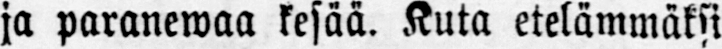ja paranewaa kesää. Kuta etelämmäksi
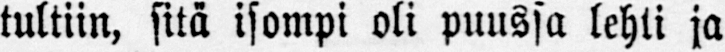tultiin, sitä isompi oli puussa lehti ja
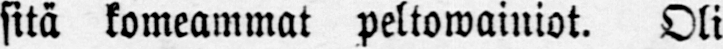sitä komeammat peltowainiot. Oli
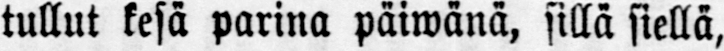tullut kesä parina päiwänä, sillä siellä,
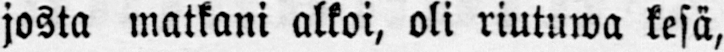josta matkani alkoi, oli riutuwa kesä,
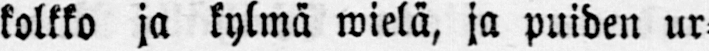kolkko ja kylmä wielä, ja puiden ur-
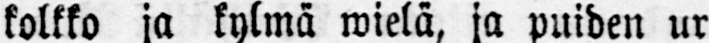wot oliwat hiiren korwulla. Oliwatko
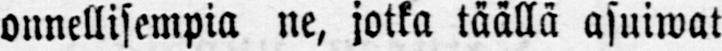onnellisempia ne, jotka täällä asuiwat
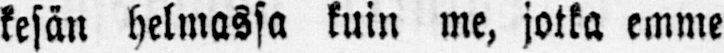kesän helmassa kuin me, jotka emme
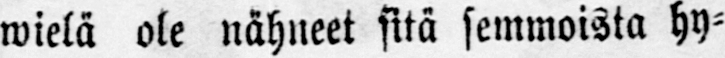wielä ole nähneet sitä semmoista hy-
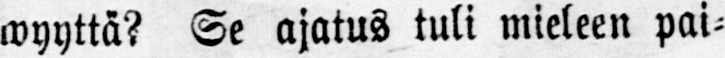wyyttä? Se ajatus tuli mieleen pai-
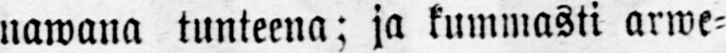nawana tunteena; ja kummasti arwe-
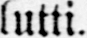lutti.
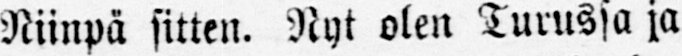Niinpä sitten. Nyt olen Turussa ja
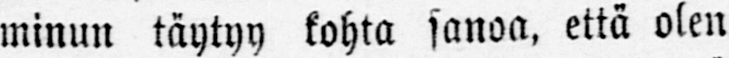minun täytyy kohta sanoa, että olen
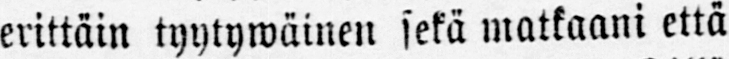erittäin tyytywäinen sekä matkaani että
